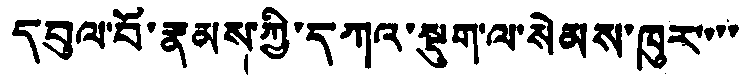དབུལ་བོ་རྣམས་ཀྱི་དཀའ་སྡུག་ལ་སེམས་ཁུར་་་
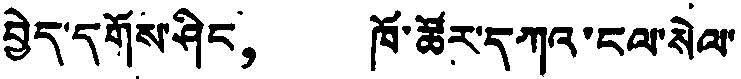བྱེད་དགོས་ཤིང， ཁོ་ཚོར་དཀའ་ངལ་སེལ་
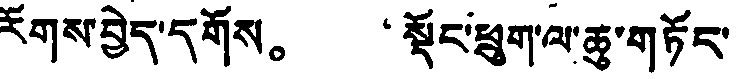རོགས་བྱེད་དགོས。 “སྟོང་ཕྲུག་ལ་ཆུ་གཏོང་
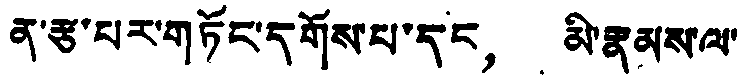ནུ་རྩ་པར་གཏོང་དགོས་པ་དང， མི་རྣམས་ལ་
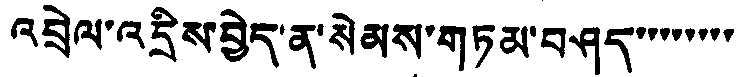འབྲེལ་འདྲིས་བྱེད་ན་སེམས་གཏམ་བཤད་་་་་་་་་
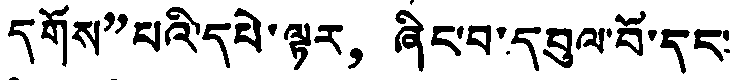དགོས”པའི་དཔེ་ལྟར， ཞིང་བ་དབུལ་བོ་དང་
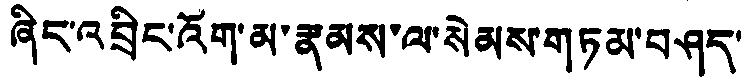ཞིང་འབྲིང་འོག་མ་རྣམས་ལ་སེམས་གཏམ་བཤད་
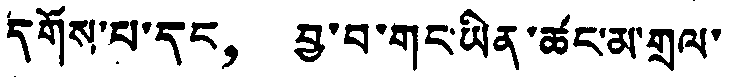དགོས་པ་དང， བྱ་བ་གང་ཡིན་ཚང་མ་གྲལ་
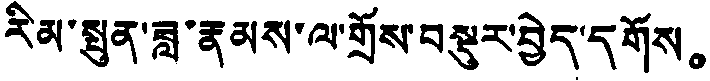རིམ་སྤུན་ཟླ་རྣམས་ལ་གྲོས་བསྡུར་བྱེད་དགོས。
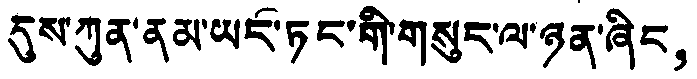དུས་ཀུན་ནམ་ཡང་ཏང་གི་གསུང་ལ་ཉན་ཞིང，
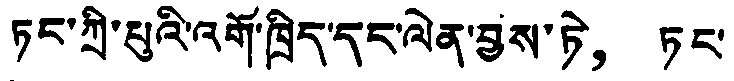ཏང་ཀྲི་པུའི་འགོ་ཁྲིད་དང་ལེན་བྱས་ཏེ， ཏང་
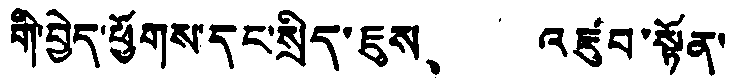གི་བྱེད་ཕྱོགས་དང་སྲིད་ཇུས、 འཛུབ་སྟོན་
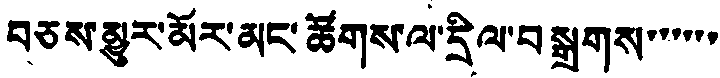བཅས་མྱུར་མོར་མང་ཚོགས་ལ་དྲིལ་བསྒྲགས་་་་་་
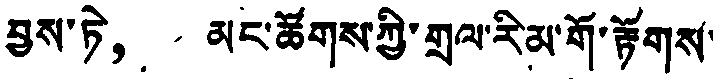བྱས་ཏེ， མང་ཚོགས་ཀྱི་གྲལ་རིམ་གོ་རྟོགས་
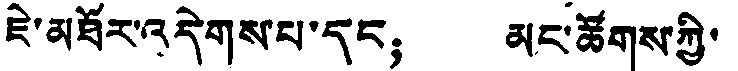ཇེ་མཐོར་འདེགས་པ་དང； མང་ཚོགས་ཀྱི་
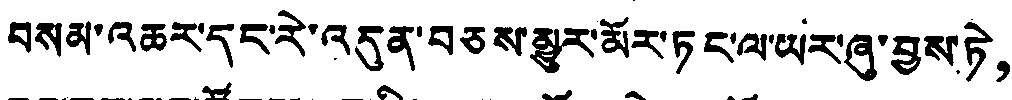བསམ་འཆར་དང་རེ་འདུན་བཅས་མྱུར་མོར་ཏང་ལ་ཡར་ཞུ་བྱས་ཏེ，
